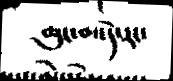ཆུང་མ་དེ་རང་
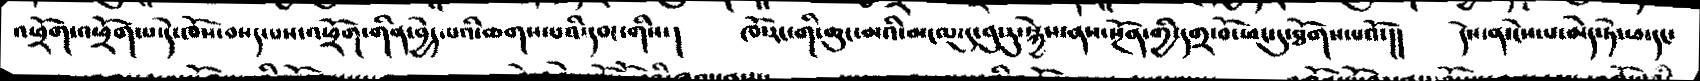འཕྲོག་འཕྲོག་པ་དེ་ཁོས་བསད་པས་འཕྲོག་གིན་བྱེད་པའི་ཆགས་པའི་དབང་གིས་།  ཁོ་རང་གི་ཆུང་མའི་མངལ་དུ་བུ་རུ་སྐྱེས་ནས་སྔོན་གྱི་དགྲ་བོ་ཕང་དུ་ཐོགས་པའོ་།།  དེས་ན་ངེས་པ་མེད་ཏེ་ཕ་དང་
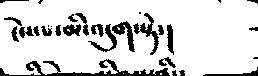ངེས་པ་མི་འདུག་སྟེ་།
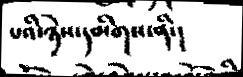པའི་ཉེས་དམིགས་ནི་།
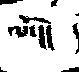ལོ་།།
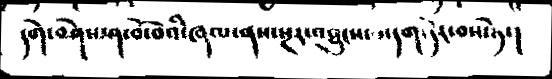དགེ་བཤེས་ཤ་བོ་བའི་ཞལ་ནས་སྔར་འཐུངས་པ་དག་དེར་བས་ཏེ་།
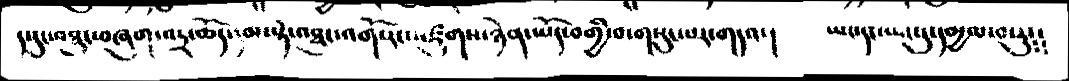ད་དུང་བསྙུང་བཞུག་འདྲ་ཆོད་དམ་སྟེ་འཐུང་འགོ་རང་འཛུགས་ཉེན་ཡོད་བགྱི་བ་གསུངས་པར་གདའ་།  ཡང་དང་ཡང་དུ་དམྱལ་བ་རུ༴༴
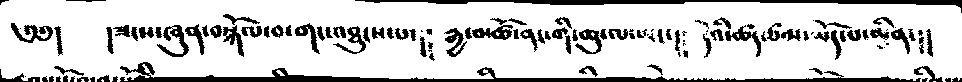༄༅།  །ཟངས་ཞུན་བསྐོལ་བ་གང་འཐུངས་པ་།།  རྒྱ་མཚོ་ནང་གི་ཆུ་ལ་ཡང་།།  དེའི་ཚད་ཙལ་ཡོད་པ་མིན་།།
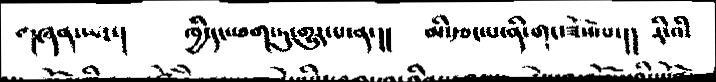གཞན་ཡང་།  ཁྱི་དང་ཕག་ཏུ་གྱུར་པ་ན་།།  མི་དབང་པ་ནི་གང་ཟོས་པ་།།  རི་འི་
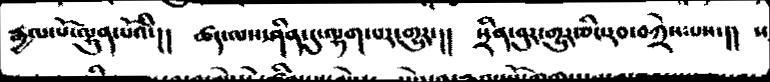རྒྱལ་པོ་ལྷུན་པོའི་།།  ཚད་ལས་ཤིན་དུ་ལྷག་པར་གྱུར་།།  སྲིན་བུར་གྱུར་ཅིང་རབ་བཀྲེས༴པས་།།
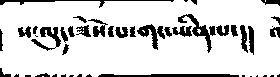ས་ལུད་ཟོས་པ་གང་ཡིན་པ་།།
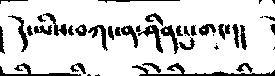དེ་ཡིས་བཀང་ན་ཤིན་དུ་གང་།།
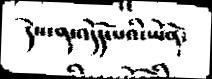དེས་ན་འདོད་པའི་ཡོན་
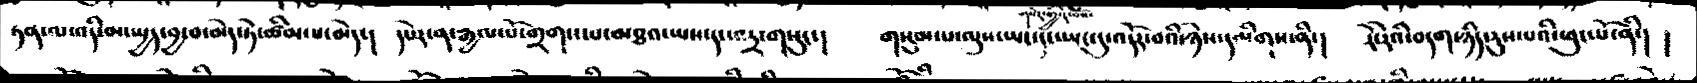ཏན་ལ་འདི་མ་ཡྱད་བྱ་བ་མེད་ཏེ་ཚིམ་པ་མེད་།   དཔེར་ན་རྒྱལ་པོ་གྲགས་པ་མཐའ་ཡས་དང་འདྲ་གསུང་།   གསུམ་པ་ལུས་ཡང་དང་ཡང་དུ་འདོར་བའི་ཉེས་དམིགས་ནི་།   རེ་རེའི་བདག་ཉིད་རུས་པའི་ཕུང་པོ་ནི་། །
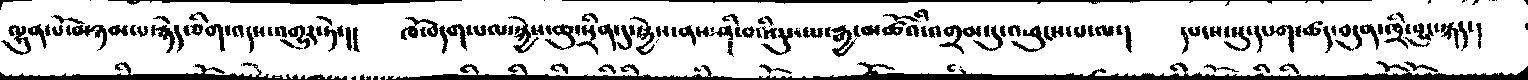ལྷུན་པོ་མཉམ་པ་རྙེད་ཅིག་འདས་འགྱུར་ཏེ་།།     ཁོ་བདག་པལ་སྐྱེས་ཆུ་སྲིན་དུ་སྐྱེས་ནས་ཤི་བའི་རུས་པ་རྒྱ་མཚོའི་འགྲམ་དུ་ཕུངས་པ་ལ་།  དཔངས་སུ་དང་ག་ཚད་བདུན་ཁྲི་བྱུང་སྐད་།
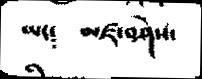ཡང༴    མཛ་བཤེས་
